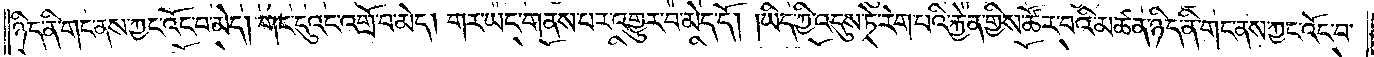ཉིད་ནི་གང་ནས་ཀྱང་འོང་བ་མེད། གང་དུའང་འགྲོ་བ་མེད། གར་ཡང་གནས་པར་འགྱུར་བ་མེད་དོ། །ཡིད་ཀྱི་འདུས་ཏེ་རེག་པའི་རྐྱེན་གྱིས་ཚོར་བའི་མཚན་ཉིད་ནི་གང་ནས་ཀྱང་འོང་བ་
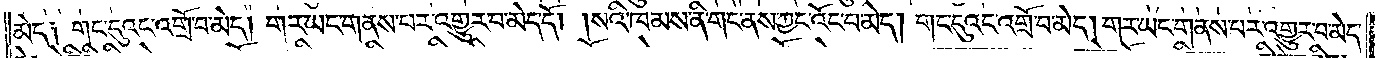མེད། གང་དུའང་འགྲོ་བ་མེད། གར་ཡང་གནས་པར་འགྱུར་བ་མེད་དོ། །སའི་ཁམས་ནི་གང་ནས་ཀྱང་འོང་བ་མེད། གང་དུའང་འགྲོ་བ་མེད། གར་ཡང་གནས་པར་འགྱུར་བ་མེད་
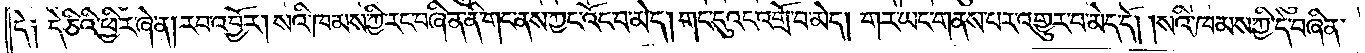དེ། དེ་ཅིའི་ཕྱིར་ཞེ་ན། རབ་འབྱོར། སའི་ཁམས་ཀྱི་རང་བཞིན་ནི་གང་ནས་ཀྱང་འོང་བ་མེད། གང་དུའང་འགྲོ་བ་མེད། གར་ཡང་གནས་པར་འགྱུར་བ་མེད་དོ། །སའི་ཁམས་ཀྱི་དེ་བཞིན་
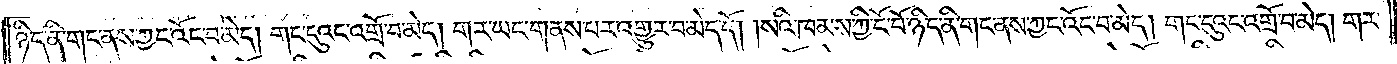ཉིད་ནི་གང་ནས་ཀྱང་འོང་བ་མེད། གང་དུའང་འགྲོ་བ་མེད། གར་ཡང་གནས་པར་འགྱུར་བ་མེད་དོ། །སའི་ཁམས་ཀྱི་ངོ་བོ་ཉིད་ནི་གང་ནས་ཀྱང་འོང་བ་མེད། གང་དུའང་འགྲོ་བ་མེད། གར་
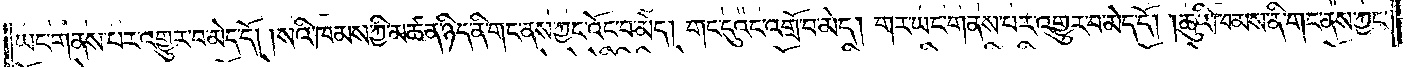ཡང་གནས་པར་འགྱུར་བ་མེད་དོ། །སའི་ཁམས་ཀྱི་མཚན་ཉིད་ནི་གང་ནས་ཀྱང་འོང་བ་མེད། གང་དུའང་འགྲོ་བ་མེད། གར་ཡང་གནས་པར་འགྱུར་བ་མེད་དོ། ཆུའི་ཁམས་ནི་གང་ནས་ཀྱང་
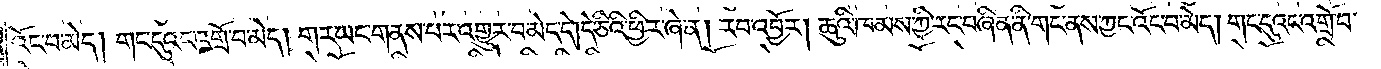འོང་བ་མེད། གང་དུའང་འགྲོ་བ་མེད། གར་ཡང་གནས་པར་འགྱུར་བ་མེད་དེ། དེ་ཅིའི་ཕྱིར་ཞེ་ན། རབ་འབྱོར། ཆུའི་ཁམས་ཀྱི་རང་བཞིན་ནི་གང་ནས་ཀྱང་འོང་བ་མེད། གང་དུའང་འགྲོ་བ་
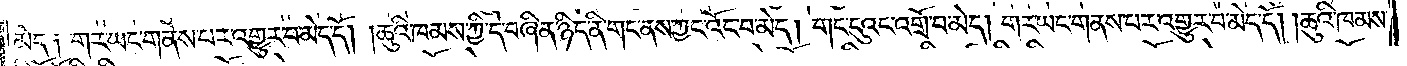མེད། གར་ཡང་གནས་པར་འགྱུར་བ་མེད་དོ། །ཆུའི་ཁམས་ཀྱི་དེ་བཞིན་ཉིད་ནི་གང་ནས་ཀྱང་འོང་བ་མེད། གང་དུའང་འགྲོ་བ་མེད། གར་ཡང་གནས་པར་འགྱུར་བ་མེད་དོ། །ཆུའི་ཁམས་
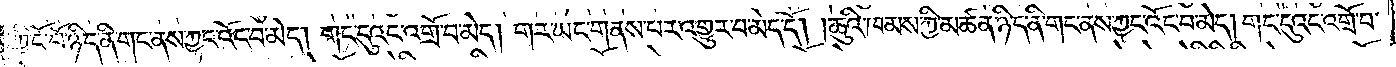ཀྱི་ངོ་བོ་ཉིད་ནི་གང་ནས་ཀྱང་འོང་བ་མེད། གང་དུའང་འགྲོ་བ་མེད། གར་ཡང་གནས་པར་འགྱུར་བ་མེད་དོ། །ཆུའི་ཁམས་ཀྱི་མཚན་ཉིད་ནི་གང་ནས་ཀྱང་འོང་བ་མེད། གང་དུའང་འགྲོ་བ་
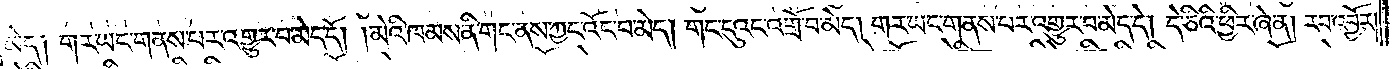མེད། གར་ཡང་གནས་པར་འགྱུར་བ་མེད་དོ། །མེའི་ཁམས་ནི་གང་ནས་ཀྱང་འོང་བ་མེད། གང་དུའང་འགྲོ་བ་མེད། གར་ཡང་གནས་པར་འགྱུར་བ་མེད་དེ། དེ་ཅིའི་ཕྱིར་ཞེ་ན། རབ་འབྱོར།
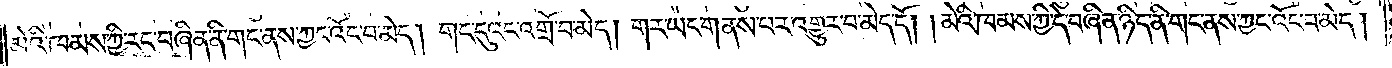མེའི་ཁམས་ཀྱི་རང་བཞིན་ནི་གང་ནས་ཀྱང་འོང་བ་མེད། གང་དུའང་འགྲོ་བ་མེད། གར་ཡང་གནས་པར་འགྱུར་བ་མེད་དོ། །མེའི་ཁམས་ཀྱི་དེ་བཞིན་ཉིད་ནི་གང་ནས་ཀྱང་འོང་བ་མེད།
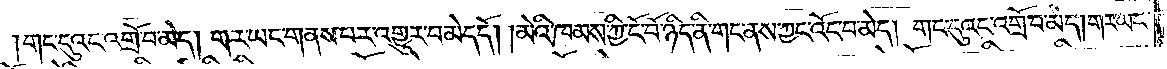གང་དུའང་འགྲོ་བ་མེད། གར་ཡང་གནས་པར་འགྱུར་བ་མེད་དོ། །མེའི་ཁམས་ཀྱི་ངོ་བོ་ཉིད་ནི་གང་ནས་ཀྱང་འོང་བ་མེད། གང་དུའང་འགྲོ་བ་མེད། གར་ཡང་
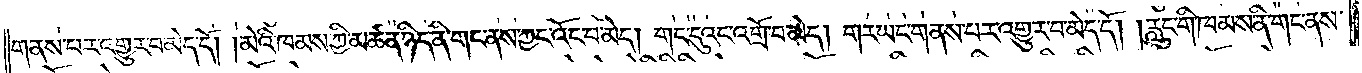གནས་པར་འགྱུར་བ་མེད་དོ། །མེའི་ཁམས་ཀྱི་མཚན་ཉིད་ནི་གང་ནས་ཀྱང་འོང་བ་མེད། གང་དུའང་འགྲོ་བ་མེད། གར་ཡང་གནས་པར་འགྱུར་བ་མེད་དོ། །རླུང་གི་ཁམས་ནི་གང་ནས་
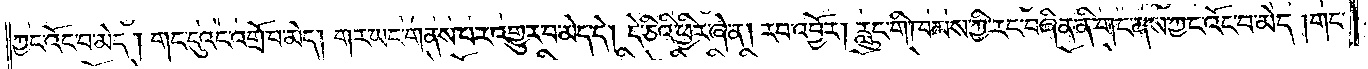ཀྱང་འོང་བ་མེད། གང་དུའང་འགྲོ་བ་མེད། གར་ཡང་གནས་པར་འགྱུར་བ་མེད་དེ། དེ་ཅིའི་ཕྱིར་ཞེ་ན། རབ་འབྱོར། རླུང་གི་ཁམས་ཀྱི་རང་བཞིན་ནི་གང་ནས་ཀྱང་འོང་བ་མེད། གང་
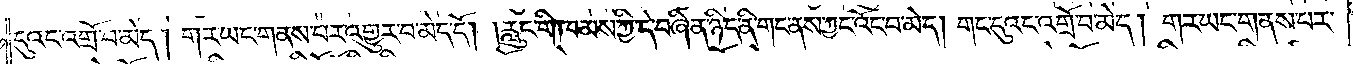དུའང་འགྲོ་བ་མེད། གར་ཡང་གནས་པར་འགྱུར་བ་མེད་དོ། །རླུང་གི་ཁམས་ཀྱི་དེ་བཞིན་ཉིད་ནི་གང་ནས་ཀྱང་འོང་བ་མེད། གང་དུའང་འགྲོ་བ་མེད། གར་ཡང་གནས་པར་
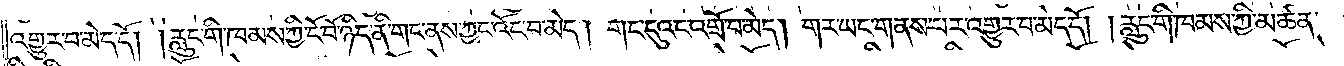འགྱུར་བ་མེད་དོ། །རླུང་གི་ཁམས་ཀྱི་ངོ་བོ་ཉིད་ནི་གང་ནས་ཀྱང་འོང་བ་མེད། གང་དུའང་འགྲོ་བ་མེད། གར་ཡང་གནས་པར་འགྱུར་བ་མེད་དོ། །རླུང་གི་ཁམས་ཀྱི་མཚན་
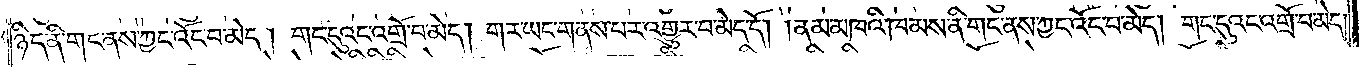ཉིད་ནི་གང་ནས་ཀྱང་འོང་བ་མེད། གང་དུའང་འགྲོ་བ་མེད། གར་ཡང་གནས་པར་འགྱུར་བ་མེད་དོ། །ནམ་མཁའི་ཁམས་ནི་གང་ནས་ཀྱང་འོང་བ་མེད། གང་དུའང་འགྲོ་བ་མེད།
